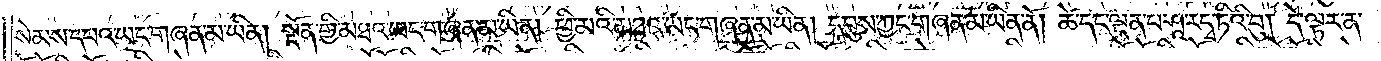སེམས་དཔའ་ཡང་གཞན་མ་ཡིན། སྔོན་གྱི་མཐའ་ཡང་གཞན་མ་ཡིན། ཕྱི་མའི་མཐའ་ཡང་གཞན་མ་ཡིན། དབུས་ཀྱང་གཞན་མ་ཡིན་ནོ། །ཚེ་དང་ལྡན་པ་ཤཱ་རདྭ་ཏིའི་བུ། །དེ་ལྟར་ན་
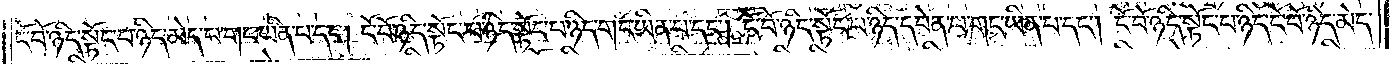ངོ་བོ་ཉིད་སྟོང་པ་ཉིད་མེད་པ་གང་ཡིན་པ་དང༌། ངོ་བོ་ཉིད་སྟོང་པ་ཉིད་སྟོང་པ་ཉིད་གང་ཡིན་པ་དང༌། ངོ་བོ་ཉིད་སྟོང་པ་ཉིད་དབེན་པ་གང་ཡིན་པ་དང༌། ངོ་བོ་ཉིད་སྟོང་པ་ཉིད་ངོ་བོ་ཉིད་མེད་
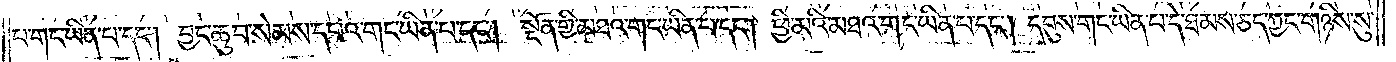པ་གང་ཡིན་པ་དང༌། བྱང་ཆུབ་སེམས་དཔའ་གང་ཡིན་པ་དང༌། སྔོན་གྱི་མཐའ་གང་ཡིན་པ་དང༌། ཕྱི་མའི་མཐའ་གང་ཡིན་པ་དང༌། དབུས་གང་ཡིན་པ་དེ་ཐམས་ཅད་ཀྱང་གཉིས་སུ་
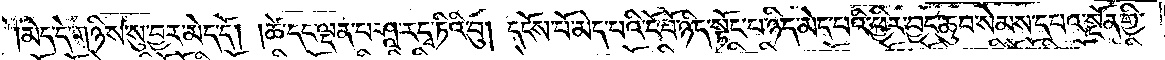མེད་དེ་གཉིས་སུ་བྱར་མེད་དོ། །ཚེ་དང་ལྡན་པ་ཤཱ་རདྭ་ཏིའི་བུ། དངོས་པོ་མེད་པའི་ངོ་བོ་ཉིད་སྟོང་པ་ཉིད་མེད་པའི་ཕྱིར་བྱང་ཆུབ་སེམས་དཔའ་སྔོན་གྱི་
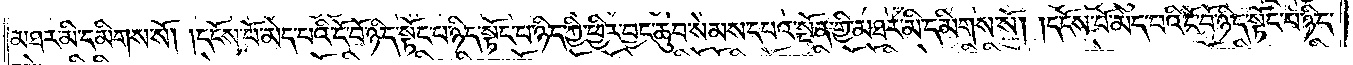མཐར་མི་དམིགས་སོ། །དངོས་པོ་མེད་པའི་ངོ་བོ་ཉིད་སྟོང་པ་ཉིད་སྟོང་པ་ཉིད་ཀྱི་ཕྱིར་བྱང་ཆུབ་སེམས་དཔའ་སྔོན་གྱི་མཐར་མི་དམིགས་སོ། །དངོས་པོ་མེད་པའི་ངོ་བོ་ཉིད་སྟོང་པ་ཉིད་
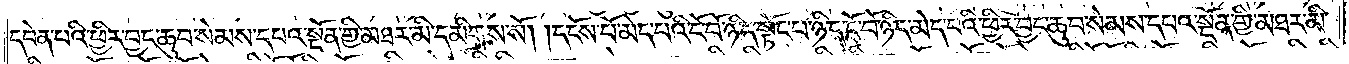དབེན་པའི་ཕྱིར་བྱང་ཆུབ་སེམས་དཔའ་སྔོན་གྱི་མཐར་མི་དམིགས་སོ། །དངོས་པོ་མེད་པའི་ངོ་བོ་ཉིད་སྟོང་པ་ཉིད་ངོ་བོ་ཉིད་མེད་པའི་ཕྱིར་བྱང་ཆུབ་སེམས་དཔའ་སྔོན་གྱི་མཐར་མི་
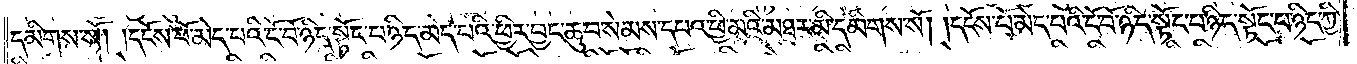དམིགས་སོ། །དངོས་པོ་མེད་པའི་ངོ་བོ་ཉིད་སྟོང་པ་ཉིད་མེད་པའི་ཕྱིར་བྱང་ཆུབ་སེམས་དཔའ་ཕྱི་མའི་མཐར་མི་དམིགས་སོ། །དངོས་པོ་མེད་པའི་ངོ་བོ་ཉིད་སྟོང་པ་ཉིད་སྟོང་པ་ཉིད་ཀྱི་
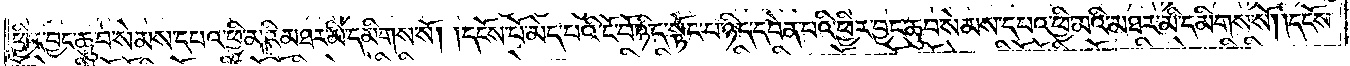ཕྱིར་བྱང་ཆུབ་སེམས་དཔའ་ཕྱི་མའི་མཐར་མི་དམིགས་སོ། །དངོས་པོ་མེད་པའི་ངོ་བོ་ཉིད་སྟོང་པ་ཉིད་དབེན་པའི་ཕྱིར་བྱང་ཆུབ་སེམས་དཔའ་ཕྱི་མའི་མཐར་མི་དམིགས་སོ། །དངོས་
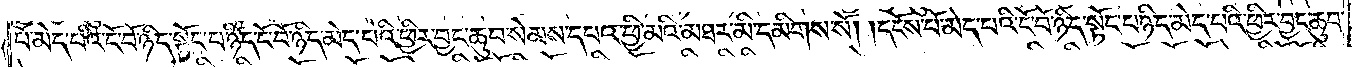པོ་མེད་པའི་ངོ་བོ་ཉིད་སྟོང་པ་ཉིད་ངོ་བོ་ཉིད་མེད་པའི་ཕྱིར་བྱང་ཆུབ་སེམས་དཔའ་ཕྱི་མའི་མཐར་མི་དམིགས་སོ། །དངོས་པོ་མེད་པའི་ངོ་བོ་ཉིད་སྟོང་པ་ཉིད་མེད་པའི་ཕྱིར་བྱང་ཆུབ་
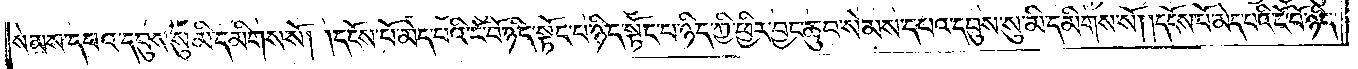སེམས་དཔའ་དབུས་སུ་མི་དམིགས་སོ། །དངོས་པོ་མེད་པའི་ངོ་བོ་ཉིད་སྟོང་པ་ཉིད་སྟོང་པ་ཉིད་ཀྱི་ཕྱིར་བྱང་ཆུབ་སེམས་དཔའ་དབུས་སུ་མི་དམིགས་སོ། །དངོས་པོ་མེད་པའི་ངོ་བོ་ཉིད་
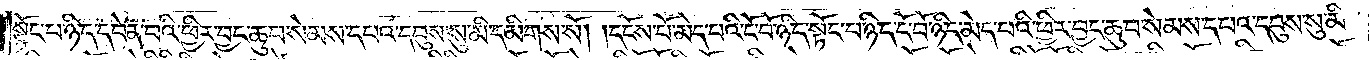སྟོང་པ་ཉིད་དབེན་པའི་ཕྱིར་བྱང་ཆུབ་སེམས་དཔའ་དབུས་སུ་མི་དམིགས་སོ། །དངོས་པོ་མེད་པའི་ངོ་བོ་ཉིད་སྟོང་པ་ཉིད་ངོ་བོ་ཉིད་མེད་པའི་ཕྱིར་བྱང་ཆུབ་སེམས་དཔའ་དབུས་སུ་མི་
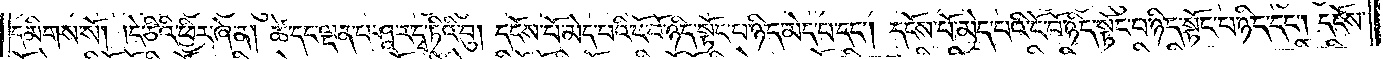དམིགས་སོ། །དེ་ཅིའི་ཕྱིར་ཞེ་ན། ཚེ་དང་ལྡན་པ་ཤཱ་རདྭ་ཏིའི་བུ། དངོས་པོ་མེད་པའི་ངོ་བོ་ཉིད་སྟོང་པ་ཉིད་མེད་པ་དང༌། དངོས་པོ་མེད་པའི་ངོ་བོ་ཉིད་སྟོང་པ་ཉིད་སྟོང་པ་ཉིད་དང༌། དངོས་
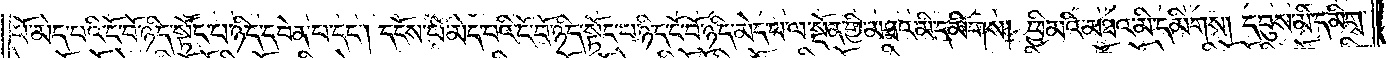པོ་མེད་པའི་ངོ་བོ་ཉིད་སྟོང་པ་ཉིད་དབེན་པ་དང༌། དངོས་པོ་མེད་པའི་ངོ་བོ་ཉིད་སྟོང་པ་ཉིད་ངོ་བོ་ཉིད་མེད་པ་ལ་སྔོན་གྱི་མཐའ་མི་དམིགས། ཕྱི་མའི་མཐའ་མི་དམིགས། དབུས་མི་དམིགས་
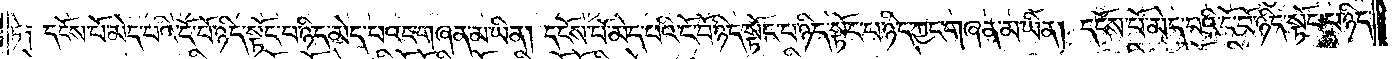ཏེ༑ དངོས་པོ་མེད་པའི་ངོ་བོ་ཉིད་སྟོང་པ་ཉིད་མེད་པའང་གཞན་མ་ཡིན། དངོས་པོ་མེད་པའི་ངོ་བོ་ཉིད་སྟོང་པ་ཉིད་སྟོང་པ་ཉིད་ཀྱང་གཞན་མ་ཡིན། དངོས་པོ་མེད་པའི་ངོ་བོ་ཉིད་སྟོང་པ་ཉིད་
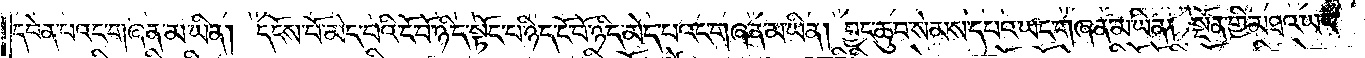དབེན་པའང་གཞན་མ་ཡིན། དངོས་པོ་མེད་པའི་ངོ་བོ་ཉིད་སྟོང་པ་ཉིད་ངོ་བོ་ཉིད་མེད་པའང་གཞན་མ་ཡིན། བྱང་ཆུབ་སེམས་དཔའ་ཡང་གཞན་མ་ཡིན། སྔོན་གྱི་མཐའ་ཡང་
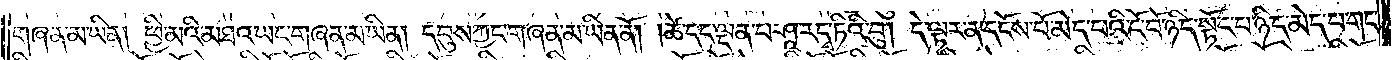གཞན་མ་ཡིན། ཕྱི་མའི་མཐའ་ཡང་གཞན་མ་ཡིན། དབུས་ཀྱང་གཞན་མ་ཡིན་ནོ། །ཚེ་དང་ལྡན་པ་ཤཱ་རདྭ་ཏིའི་བུ། དེ་ལྟར་ན་དངོས་པོ་མེད་པའི་ངོ་བོ་ཉིད་སྟོང་པ་ཉིད་མེད་པ་གང་
